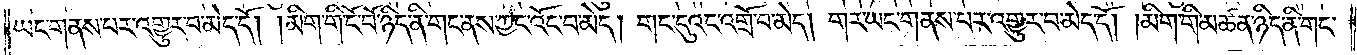ཡང་གནས་པར་འགྱུར་བ་མེད་དོ། །མིག་གི་ངོ་བོ་ཉིད་ནི་གང་ནས་ཀྱང་འོང་བ་མེད། གང་དུའང་འགྲོ་བ་མེད། གར་ཡང་གནས་པར་འགྱུར་བ་མེད་དོ། །མིག་གི་མཚན་ཉིད་ནི་གང་
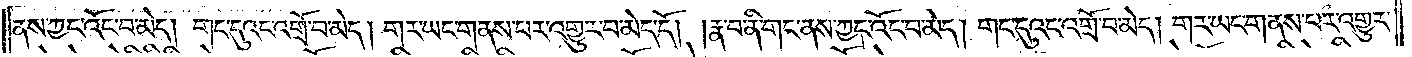ནས་ཀྱང་འོང་བ་མེད། གང་དུའང་འགྲོ་བ་མེད། གར་ཡང་གནས་པར་འགྱུར་བ་མེད་དོ། །རྣ་བ་ནི་གང་ནས་ཀྱང་འོང་བ་མེད། གང་དུའང་འགྲོ་བ་མེད། གར་ཡང་གནས་པར་འགྱུར་
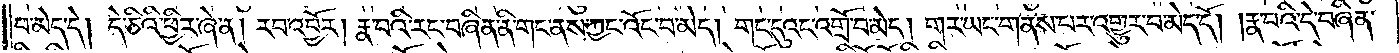བ་མེད་དེ། དེ་ཅིའི་ཕྱིར་ཞེ་ན། རབ་འབྱོར། རྣ་བའི་རང་བཞིན་ནི་གང་ནས་ཀྱང་འོང་བ་མེད། གང་དུའང་འགྲོ་བ་མེད། གར་ཡང་གནས་པར་འགྱུར་བ་མེད་དོ། །རྣ་བའི་དེ་བཞིན་
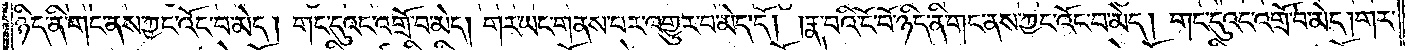ཉིད་ནི་གང་ནས་ཀྱང་འོང་བ་མེད། གང་དུའང་འགྲོ་བ་མེད། གར་ཡང་གནས་པར་འགྱུར་བ་མེད་དོ། །རྣ་བའི་ངོ་བོ་ཉིད་ནི་གང་ནས་ཀྱང་འོང་བ་མེད། གང་དུའང་འགྲོ་བ་མེད། གར་
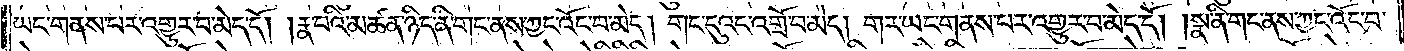ཡང་གནས་པར་འགྱུར་བ་མེད་དོ། །རྣ་བའི་མཚན་ཉིད་ནི་གང་ནས་ཀྱང་འོང་བ་མེད། གང་དུའང་འགྲོ་བ་མེད། གར་ཡང་གནས་པར་འགྱུར་བ་མེད་དོ། །སྣ་ནི་གང་ནས་ཀྱང་འོང་བ་
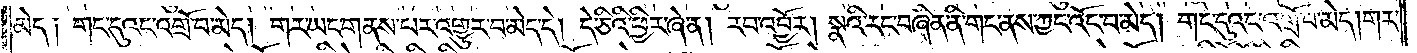མེད༑ གང་དུའང་འགྲོ་བ་མེད། གར་ཡང་གནས་པར་འགྱུར་བ་མེད་དེ། དེ་ཅིའི་ཕྱིར་ཞེ་ན། རབ་འབྱོར། སྣའི་རང་བཞིན་ནི་གང་ནས་ཡང་འོང་བ་མེད། གང་དུའང་འགྲོ་བ་མེད། གར་
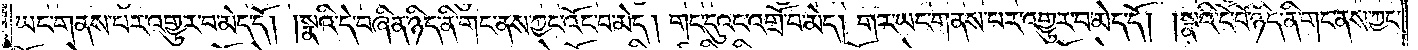ཡང་གནས་པར་འགྱུར་བ་མེད་དོ། །སྣའི་དེ་བཞིན་ཉིད་ནི་གང་ནས་ཀྱང་འོང་བ་མེད། གང་དུའང་འགྲོ་བ་མེད། གར་ཡང་གནས་པར་འགྱུར་བ་མེད་དོ། །སྣའི་ངོ་བོ་ཉིད་ནི་གང་ནས་ཀྱང་
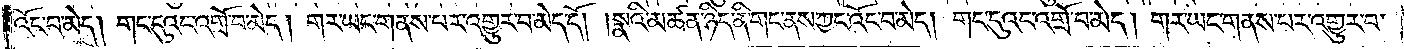འོང་བ་མེད། གང་དུའང་འགྲོ་བ་མེད། གར་ཡང་གནས་པར་འགྱུར་བ་མེད་དོ། །སྣའི་མཚན་ཉིད་ནི་གང་ནས་ཀྱང་འོང་བ་མེད། གང་དུའང་འགྲོ་བ་མེད། གར་ཡང་གནས་པར་འགྱུར་བ་
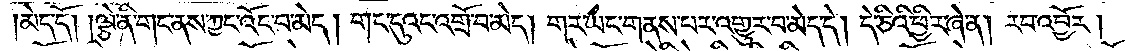མེད་དོ། །ལྕེ་ནི་གང་ནས་ཀྱང་འོང་བ་མེད། གང་དུའང་འགྲོ་བ་མེད། གར་ཡང་གནས་པར་འགྱུར་བ་མེད་དོ། དེ་ཅིའི་ཕྱིར་ཞེ་ན། རབ་འབྱོར།
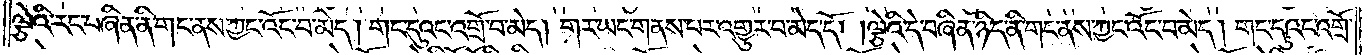ལྕེའི་རིང་བཞིན་ནི་གང་ནས་ཀྱང་འོང་བ་མེད། གང་དུའང་འགྲོ་བ་མེད། གར་ཡང་གནས་པར་འགྱུར་བ་མེད་དོ། །ལྕེའི་དེ་བཞིན་ཉིད་ནི་གང་ནས་ཀྱང་འོང་བ་མེད། གང་དུའང་འགྲོ་
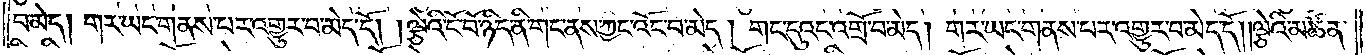བ་མེད། གར་ཡང་གནས་པར་འགྱུར་བ་མེད་དོ། །ལྕེའི་ངོ་བོ་ཉིད་ནི་གང་ནས་ཀྱང་འོང་བ་མེད། གང་དུའང་འགྲོ་བ་མེད། གར་ཡང་གནས་པར་འགྱུར་བ་མེད་དོ། །ལྕེའི་མཚན་
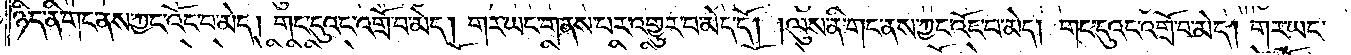ཉིད་ནི་གང་ནས་ཀྱང་འོང་བ་མེད། གང་དུའང་འགྲོ་བ་མེད། གར་ཡང་གནས་པར་འགྱུར་བ་མེད་དོ། །ལུས་ནི་གང་ནས་ཀྱང་འོང་བ་མེད། གང་དུའང་འགྲོ་བ་མེད། གར་ཡང་
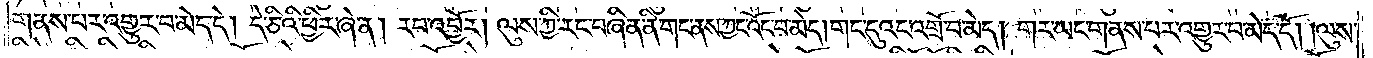གནས་པར་འགྱུར་བ་མེད་དེ། དེ་ཅིའི་ཕྱིར་ཞེ་ན། རབ་འབྱོར། ལུས་ཀྱི་རང་བཞིན་ནི་གང་ནས་ཀྱང་འོང་བ་མེད། གང་དུའང་འགྲོ་བ་མེད། གར་ཡང་གནས་པར་འགྱུར་བ་མེད་དོ། །ལུས་
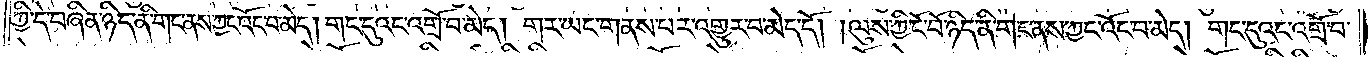ཀྱི་དེ་བཞིན་ཉིད་ནི་གང་ནས་ཀྱང་འོང་བ་མེད། གང་དུའང་འགྲོ་བ་མེད། གར་ཡང་གནས་པར་འགྱུར་བ་མེད་དོ། །ལུས་ཀྱི་ངོ་བོ་ཉིད་ནི་གང་ནས་ཀྱང་འོང་བ་མེད། གང་དུའང་འགྲོ་བ་
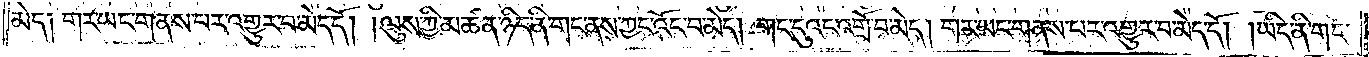མེད། གར་ཡང་གནས་པར་འགྱུར་བ་མེད་དོ། །ལུས་ཀྱི་མཚན་ཉིད་ནི་གང་ནས་ཀྱང་འོང་བ་མེད། གང་དུའང་འགྲོ་བ་མེད། གར་ཡང་གནས་པར་འགྱུར་བ་མེད་དོ། །ཡིད་ནི་གང་
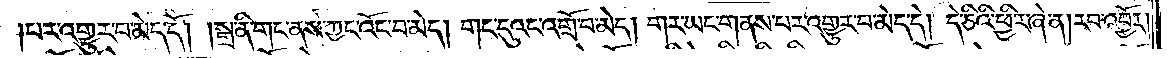པར་འགྱུར་བ་མེད་དོ། །སྒྲ་ནི་གང་ནས་ཀྱང་འོང་བ་མེད། གང་དུའང་འགྲོ་བ་མེད། གར་ཡང་གནས་པར་འགྱུར་བ་མེད་དེ། དེ་ཅིའི་ཕྱིར་ཞེ་ན། རབ་འབྱོར།
